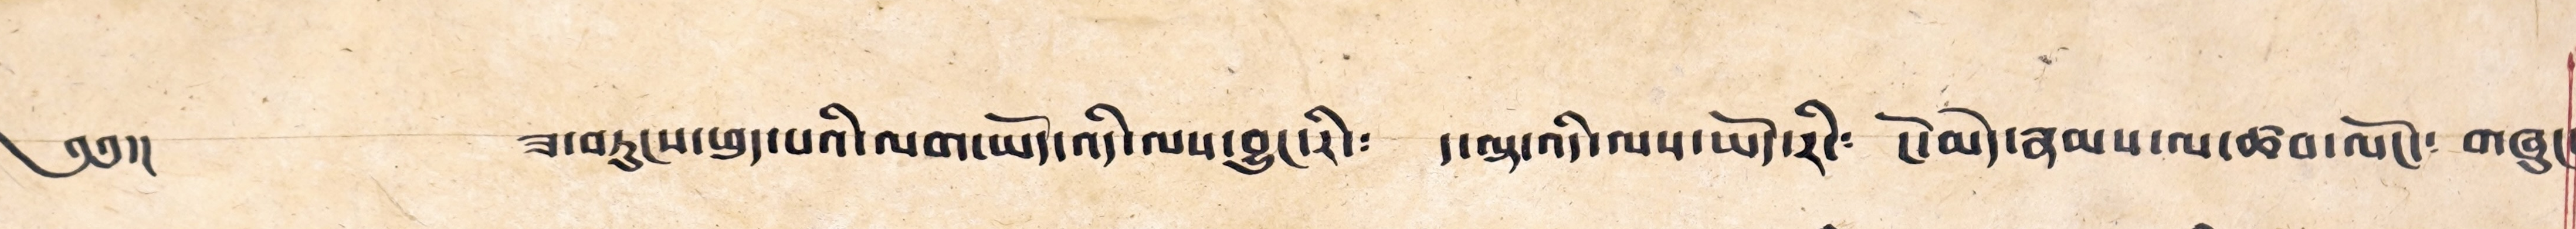༄༅།། ཟ་བཏུངས་ཕུད་པའི་ལག་ཡོད་འདི་ལས་བྱུང་རི་༴ ད་ལྟར་འདི་ལས་ཡོད་རི་༴ ངོ་མེད་རྣམས་ལ་ཚབ་ལོང་༴ གཞུང་
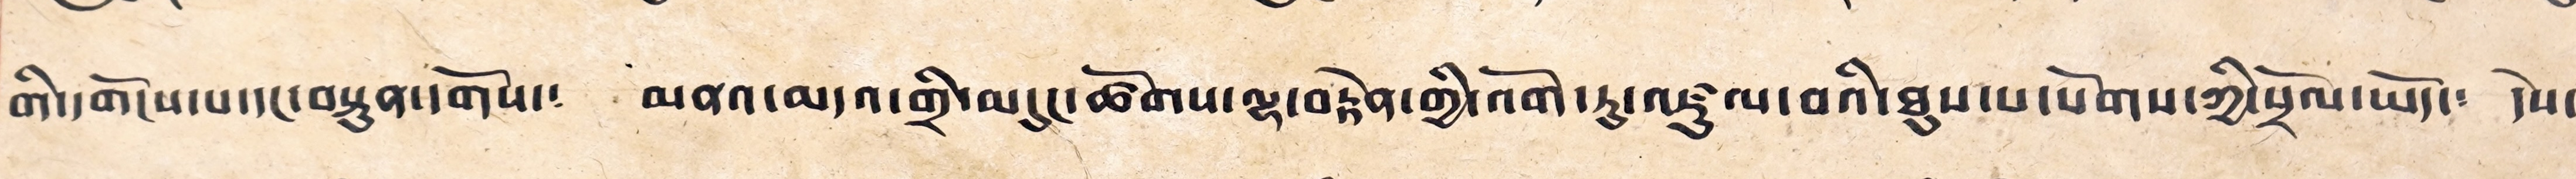གི་དགོངས་པ་དང་བསྟུན་དགོས་༴ མནའ་མདའ་གྲི་མདུང་ཚོགས་ལྷ་བརྟེན་གྱི་འོག་ཏུ་འཛུལ་བའི་ཐུས་པ་སོགས་ཀྱི་སྲོལ་ཡོད་༴ དེས་
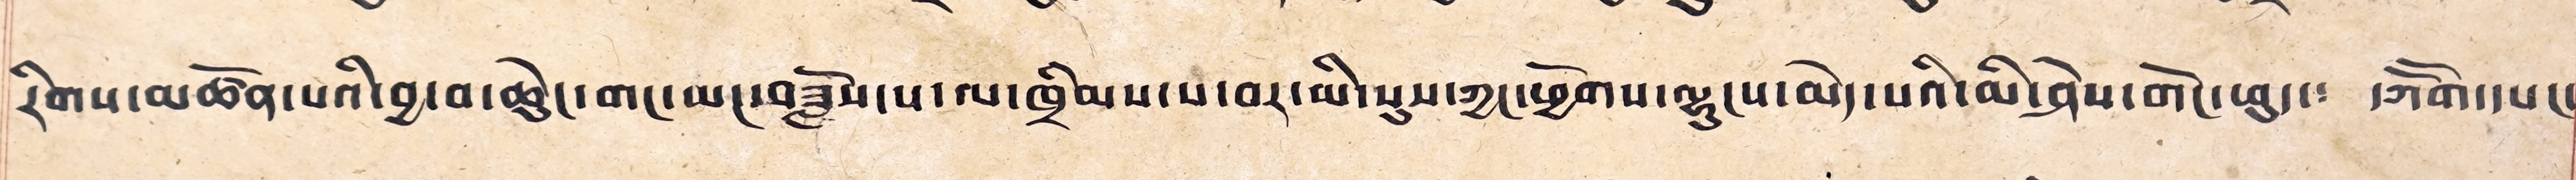རིགས་མཚོན་པའི་བྱ་བ་ཆེུང་གང་ཡང་བཟློས་པ་ལ་ཁྲིམས་ས་བར་མི་སུས་ཀྱང་ཕྱོགས་ལྷུངས་མེད་པའི་མི་ཤེས་གོང་ཕུད་༴ དཀོན་མཆོག་དཔང་
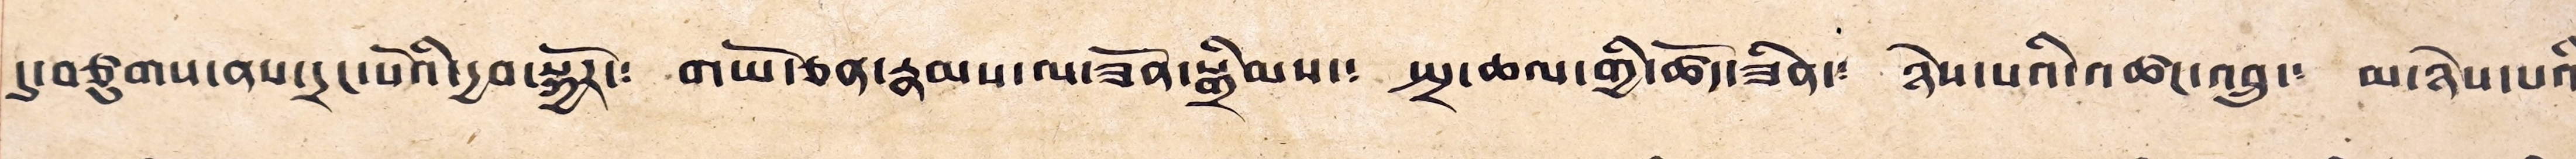དུ་བཙུགས་ནས་དྲང་པོའི་དྱབ་སྐྱོར་༴ གཡོ་ཅན་རྣམས་ལ་ཟོན་སྒྲིམས་༴ སྤྲ་ཆལ་གྱི་ཚོད་ཟིན་༴ ཉེས་པའི་འཚང་འབྲུ་༴ མ་ཉེས་པའི་
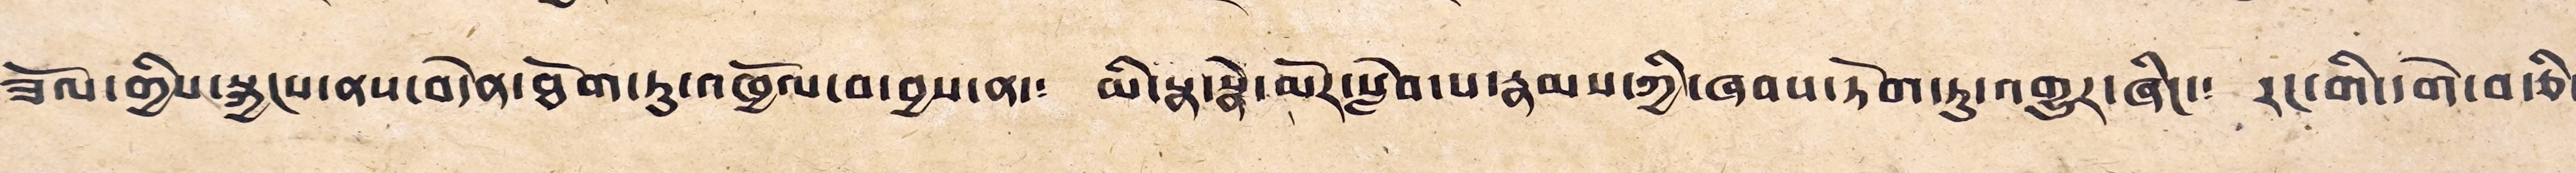ཟོལ་གྱིས་སྐྱངས་ནས་བདེན་ཐོག་ཏུ་འཁྱོལ་བ་བྱས་ན་༴ མི་སྣ་སྣེ་མོར་སླེབ་པ་རྣམས་ཀྱི་ཞབས་ཏོག་ཏུ་འགྱུར་ཞིང་༴ རང་གི་དགེ་བ་ཅི་
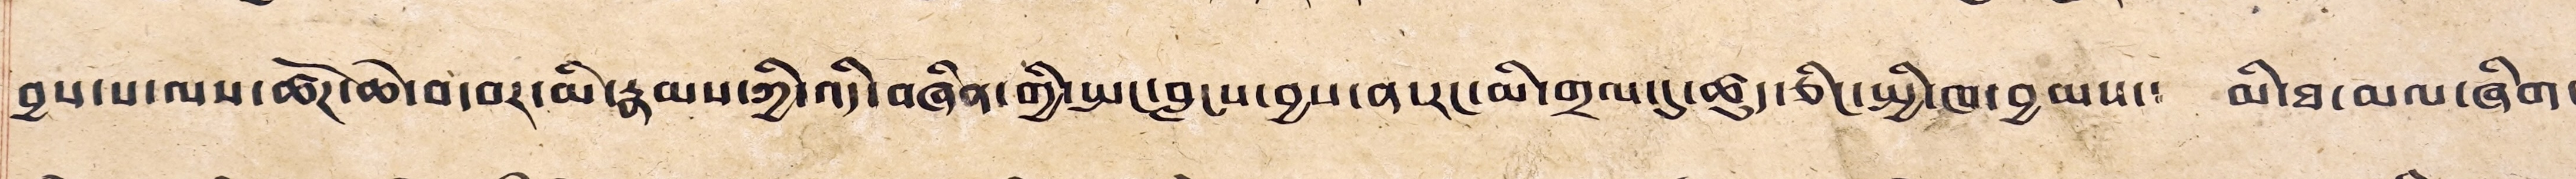བྱས་པ་ལས་ཚོཊ་ཆེ་བ་བར་མི་རྣམས་ཀྱི་འདི་བཞིན་གྱི་སྤང་བླངས་བྱས་ན་རང་མི་གྲལ་དུ་ཚུད་ཅིང་སྤྱི་ཁ་བྱམས་༴ མི་ཐ་མལ་ཞིག་
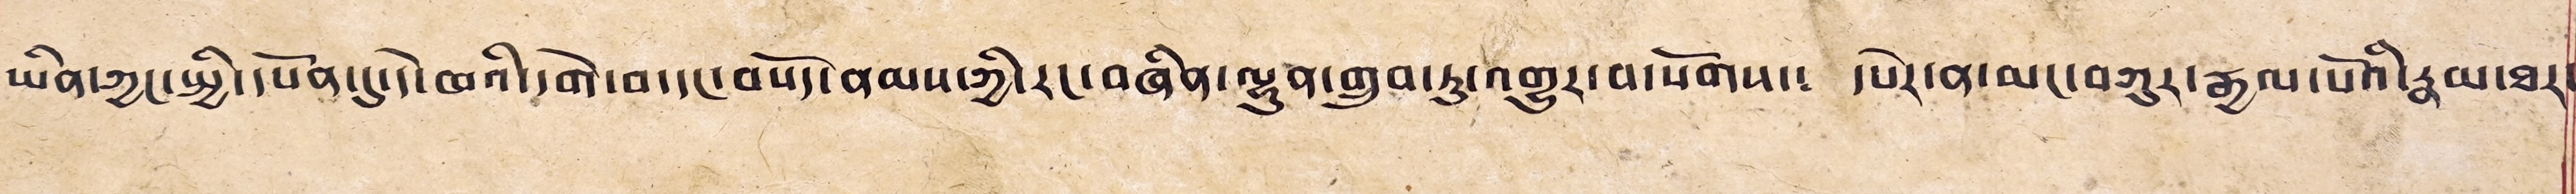ཡིན་ཀྱང་སྤྱི་དཔོན་དུ་དེ་ཁའི་དགེ་བ་དང་བསོད་ནམས་ཀྱི་རང་བཞིན་ལྷུན་གྲུབ་ཏུ་འགྱུར་བ་སོགས་༴ དཔེར་ན་མང་བཀུར་རྒྱལ་པོའི་རྣམ་ཐར་
